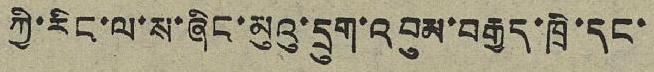ཀྱི་རིང་ལ་ས་ཞིང་མུའུ་དྲུག་འབུམ་བརྒྱད་ཁྲི་དང་
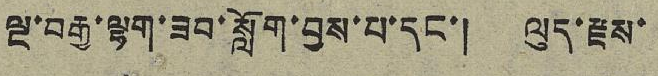ལྔ་བརྒྱ་ལྷག་ཟབ་སློག་བྱས་པ་དང་། ལུད་རྫས་
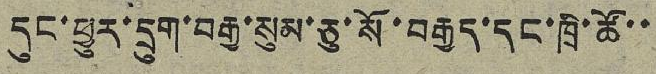དུང་ཕྱུར་དྲུག་བརྒྱ་སུམ་ཅུ་སོ་བརྒྱད་དང་ཁྲི་ཚོ་་
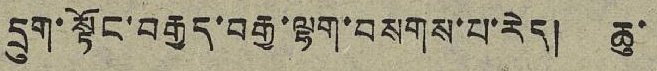དྲུག་སྟོང་བརྒྱད་བརྒྱ་ལྷག་བསགས་པ་རེད། ཆུ་
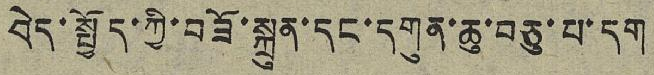བེད་སྤྱོད་ཀྱི་བཟོ་སྐྲུན་དང་དགུན་ཆུ་བཅུ་པ་དག
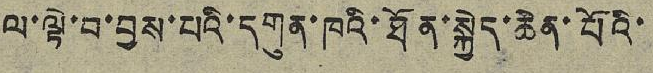ལ་ལྟེ་བ་བྱས་པའི་དགུན་ཁའི་ཐོན་སྐྱེད་ཆེན་པོའི་
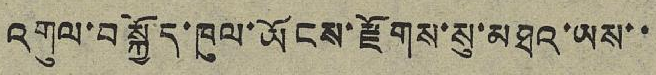འགུལ་བསྐྱོད་ཁུལ་ཡོངས་རྫོགས་སུ་མཐའ་ཡས་་
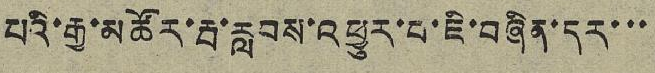པའི་རྒྱ་མཚོར་རྦ་རླབས་འཕྱུར་བ་ཇི་བཞིན་དར་་་
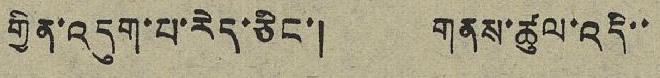གྱིན་འདུག་པ་རེད་ཅིང་། གནས་ཚུལ་འདི་་
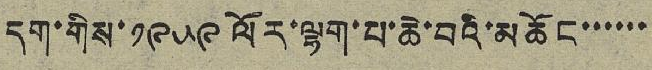དག་གིས་ ༡༩༥༩ ལོར་ལྷག་པ་ཆེ་བའི་མཆོང་་་་་་
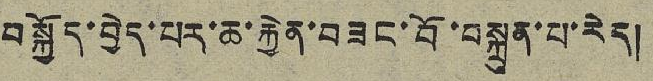བསྐྱོད་བྱེད་པར་ཆ་རྐྱེན་བཟང་བོ་བསྐྲུན་པ་རེད།
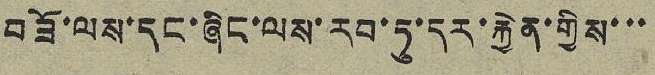བཟོ་ལས་དང་ཞིང་ལས་རབ་ཏུ་དར་རྐྱེན་གྱིས་་་
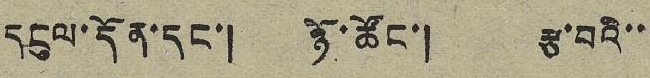དངུལ་དོན་དང་། ཉོ་ཚོང་། རྩ་བའི་་
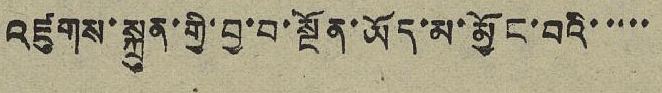འཛུགས་སྐྲུན་གྱི་བྱ་བ་སྔོན་ཡོད་མ་མྱོང་བའི་་་་་
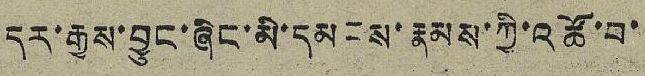དར་རྒྱས་བྱུང་ཞིང་མི་དམངས་རྣམས་ཀྱི་འཚོ་བ་
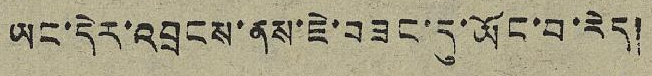ཡང་དེར་འབྲངས་ནས་ཇེ་བཟང་དུ་ཡོང་བ་རེད།
